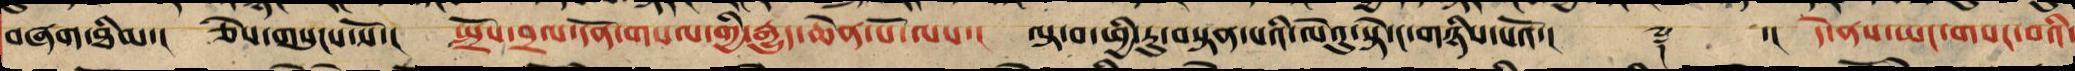བཞག་ཐིམ་། ཅེས་གསུངས་སོ་། སྤྲོས་བྲལ་དོན་གསལ་གྱི་རྒྱུད་ཆེན་པོ་ལས་། ལྟ་བ་སྤྱི་རུ་བསྟན་པའི་ལེའུ་སྟེ་ང་གཉིས་པའོ་།། ༈ ་།། དེ་ནས་ཡང་གསང་བའི་
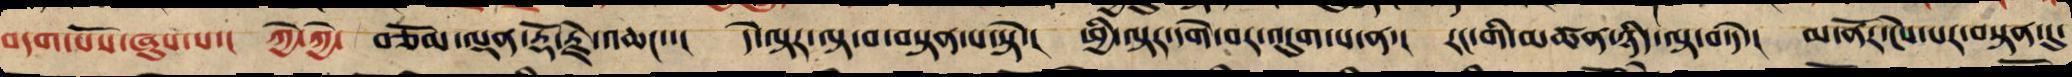བདག་པོས་ཞུས་པ་། ཀྱེ་ཀྱེ་ བཅོམ་ལྡན་རྡོ་རྗེ་འཆང་་། དེ་ལྟར་ལྟ་བ་བསྟན་པ་དེ་། ཕྱི་ལྟར་དགེ་བར་འདུག་པ་ན་། རང་གི་མཚན་ཉིད་ལྟ་བ་དེ་། མ་ནོར་ངེས་པར་བསྟན་དུ་
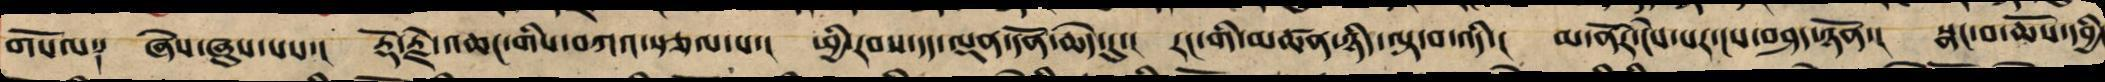གསོལ༑ ཞེས་ཞུས་པས་། རྡོ་རྗེ་འཆང་གིས་བཀའ་སྩལ་པ་། ཕྱི་རབས་དད་ལྡན་དོན་ཆེད་དུ་། རང་གི་མཚན་ཉིད་ལྟ་བ་ནི་། མ་ནོར་ངེས་པར་ངས་བཤད་ཉོན་། སྣང་བ་ཆོས་དབྱིང
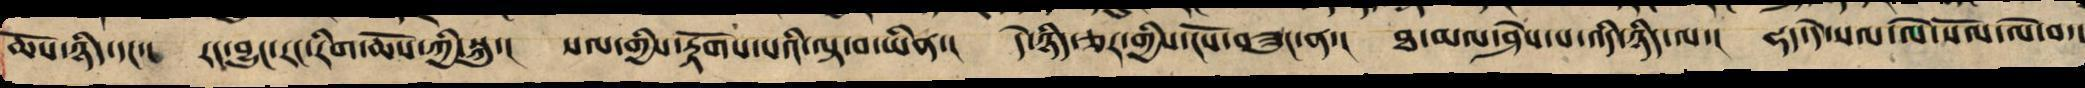ཆོས་ཉིད་དང་། རང་བྱུང་རང་རིག་ཆོས་ཀྱི་སྐུ་། སལ་གྱིས་རྟོགས་པའི་ལྟ་བ་ཡིན་། དེ་ཉིད་ཅར་གྱིས་ངོས་བཟུང་ན་། ཐ་མལ་ཤེས་པ་འདི་ཉིད་ལ་། ཧད་དེ་སལ་ལེ་སོ་ལེ་བ་།
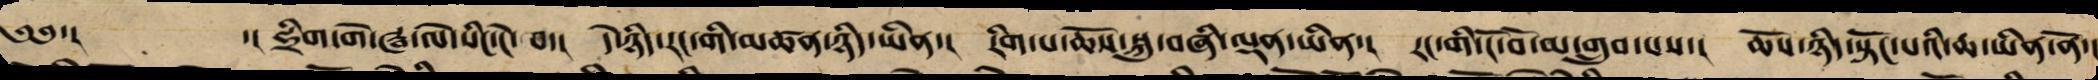༄༅་།  ་། ཧྲིག་གེ་ཝ་ལེ་སིང་ངེ་བ་། དེ་ཉིད་རང་གི་མཚན་ཉིད་ཡིན་། རིག་པ་ཆོས་སྐུ་བཞི་ལྡན་ཡིན་། རང་གི་ངོ་བོ་མ་གྲུབ་པས་། ཆོས་ཉིད་སྟོང་པའི་ཆ་ཡིན་ནོ་།
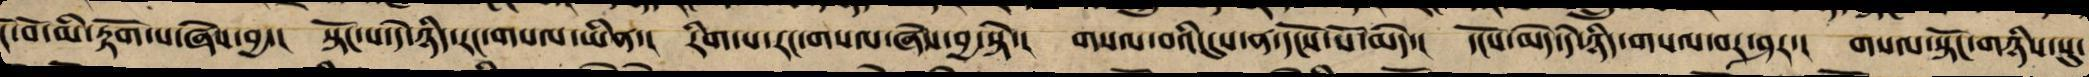ངོ་བོ་མི་རྟོག་པ་ཞེས་བྱ་། སྟོང་པ་དེ་ཉིད་རང་གསལ་ཡིན་། རིག་པ་རང་གསལ་ཞེས་བྱ་སྟེ་། གསལ་བའི་དུས་ན་དངོས་པོ་མེད་། དངོས་མེད་དེ་ཉིད་གསལ་བར་ཤར་། གསལ་སྟོང་གཉིས་སུ་
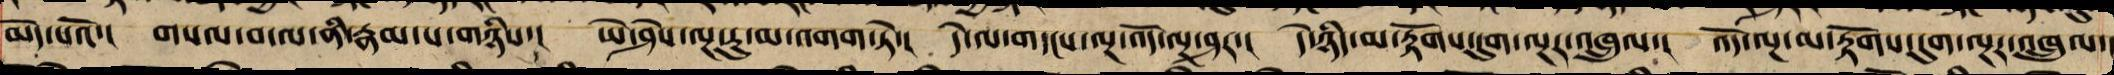མེད་པའོ་། གསལ་བ་ལ་ནི་རྣམ་པ་གཉིས་། ཡེ་ཤེས་ལྔ་རུ་མ་འགགས་ཏེ་། དེ་ལ་གདངས་ལྔ་འོད་ལྔ་ཤར་། དེ་ཉིད་མ་རྟོགས་དུག་ལྔར་འཁྲུལ་། འོད་ལྔ་མ་རྟོགས་འབྱུང་ལྔར་འཁྲུལ་།
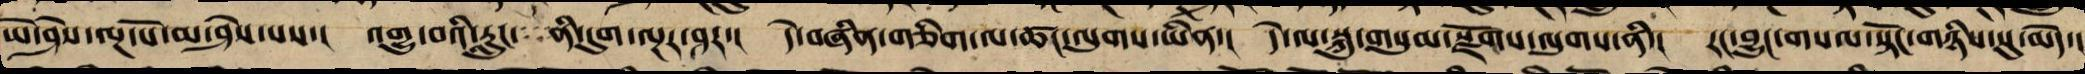ཡེ་ཤེས་ལྔ་པོ་མ་ཤེས་པས་། འགྱུ་བའི་རླུང་་་ནི་དུག་ལྔར་ཤར་། དེ་བཞིན་གཅིག་ལ་ཚང་ལུགས་ཡིན་། དེ་ལ་སྐུ་གསུམ་སྫོགས་ལུགས་ནི་། རང་བྱུང་གསལ་སྟོང་གཉིས་སུ་མེད་།
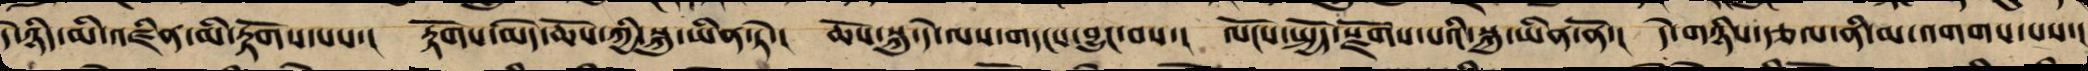དེ་ཉིད་མི་འཛིན་མི་རྟོགས་པས་། རྟོགས་མེད་ཆོས་ཀྱི་སྐུ་ཡིན་ཏེ་། ཆོས་སྐུ་དེ་ལས་གདངས་བྱུང་བས་། ལོངས་སྤྱོད་སྫོགས་པའི་སྐུ་ཡིན་ནོ་། དེ་གཉིས་རྩལ་ནི་མ་འགགས་པས་།
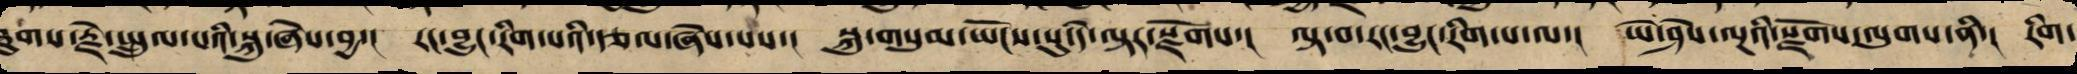ཐུགས་རྗེ་སྤྲུལ་པའི་སྐུ་ཞེས་བྱ་། རང་བྱུང་རིག་པའི་རྩལ་ཞེས་པས་། སྐུ་གསུམ་ཡོངས་སུ་དེ་ལྟར་སྫོགས་། ལྟ་བ་རང་བྱུང་རིག་པ་ལ་། ཡེ་ཤེས་ལྔའི་སྫོགས་ལུགས་ནི་། རིག་
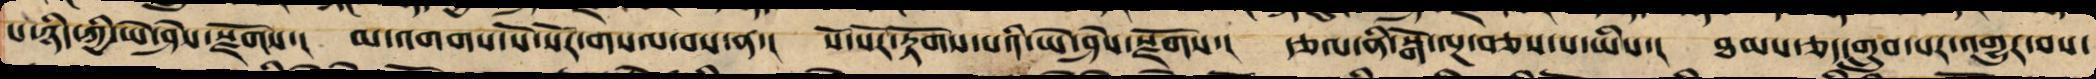པ་ཉིད་ཀྱི་ཡེ་ཤེས་སྫོགས་། མ་འགགས་སོ་སོར་གསལ་བས་ན་། སོ་སོར་རྟོགས་པའི་ཡེ་ཤེས་སྫོགས་། རྩལ་ནི་སྒོ་ལྔ་བཅས་པ་ཡིས་། ཐམས་ཅད་གྲུབ་པར་འགྱུར་བས་
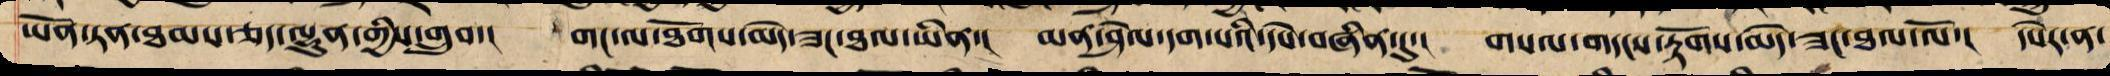ཡོན་ཏན་ཐམས་ཅད་ལྷུན་གྱིས་གྲུབ་། གང་ལ་ཐོགས་མེད་ཟང་ཐལ་ཡིན་། མན་ཤེལ་དག་པའི་དཔེ་བཞིན་དུ་། གསལ་གདངས་རྟོགས་མེད་ཟང་ཐལ་ལོ་། དཔེར་ན་
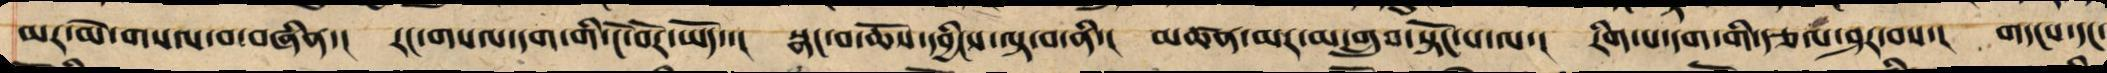མར་མེ་གསལ་བ་བཞིན་། རང་གསལ་དག་གི་ངོ་བོར་ཡོད་་། སྣང་བ་ཆོས་དབྱིངས་ལྟ་བ་ནི་། མཚན་མར་མ་གྲུབ་སྟོང་པ་ལ་། རིག་པ་དག་གི་རྩལ་ཤར་བས་། གདངས་དང་
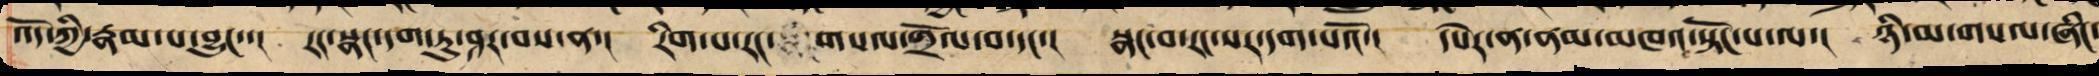འོད་ཀྱི་རྣམ་པ་བྱུང་་། རང་སྣང་དག་ཏུ་ཤར་བས་ན་། རིག་པ་རང་ གསལ་གྲོལ་བ་དང་། སྣང་བ་རང་སར་དག་པའོ་། དཔེར་ན་ནམ་མཁའ་སྟོང་པ་ལ་། ཉི་མ་གསལ་ཞིང་
